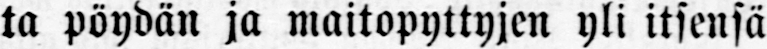ta pöydän ja maitopyttyjen yli itsensä
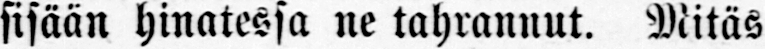sisään hinatessa ne tahrannut. Mitäs
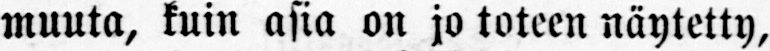muuta, kuin asia on jo toteen näytetty,
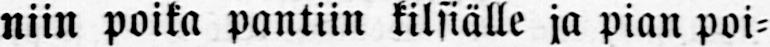niin poika pantiin kilsiälle ja pian poi-
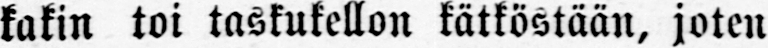kakin toi taskukellon kätköstään, joten
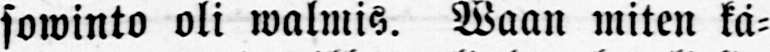sowinto oli walmis. Waan miten kä-
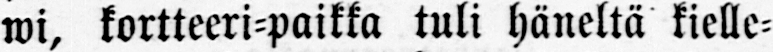wi, kortteeri-paikka tuli häneltä kielle-
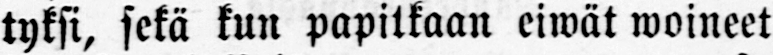tyksi, sekä kun papitkaan eiwät woineet
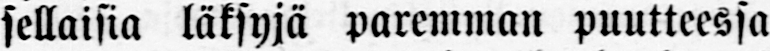sellaisia läksyjä paremman puutteessa
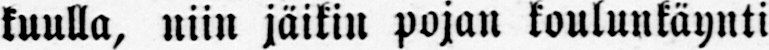kuulla, niin jäikin pojan koulunkäynti
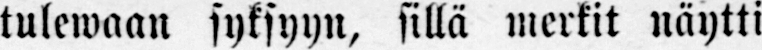tulewaan syksyyn, sillä merkit näytti
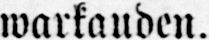warkauden.
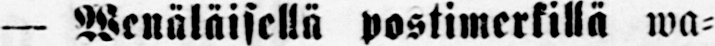— Wenäläisellä postimerkillä wa-
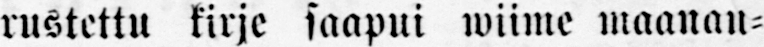rustettu kirje saapui wiime maanan-
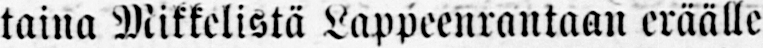taina Mikkelistä Lappeenrantaan eräälle
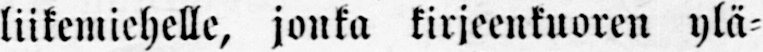liikemiehelle, jonka kirjeenkuoren ylä-
